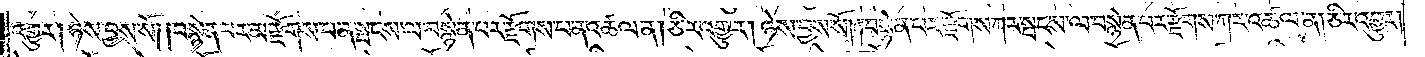འགྱུར། ཉེས་བྱས་སོ། །བསྙེན་པར་མ་རྫོགས་པ་ན་སྤངས་ལ་བསྙེན་པར་རྫོགས་པ་ན་འཚལ་ན། ཅིར་འགྱུར། ཉེས་བྱས་སོ། །བསྙེན་པར་རྫོགས་ཀར་སྤངས་ལ་བསྙེན་པར་རྫོགས་ཀར་འཚལ་ན། ཅིར་འགྱུར།
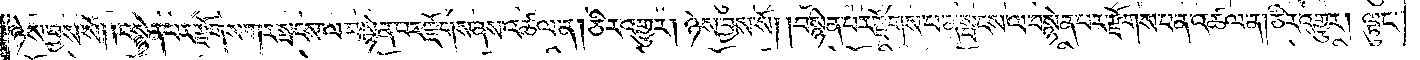ཉེས་བྱས་སོ། །བསྙེན་པར་རྫོགས་ཀར་སྤངས་ལ་བསྙེན་པར་རྫོགས་ནས་འཚལ་ན། ཅིར་འགྱུར། ཉེས་བྱས་སོ། །བསྙེན་པར་རྫོགས་པ་ན་སྤངས་ལ་བསྙེན་པར་རྫོགས་པ་ན་འཚལ་ན། ཅིར་འགྱུར། ལྟུང་
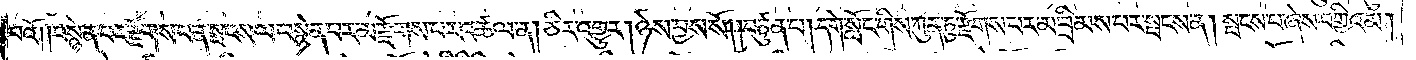བའོ། །བསྙེན་པར་རྫོགས་པ་ན་སྤངས་ལ་བསྙེན་པར་མ་རྫོགས་པར་འཚལ་ན། ཅིར་འགྱུར། ཉེས་བྱས་སོ། །བཙུན་པ། དགེ་སློང་གིས་ཀུན་ཏུ་རྫོགས་པར་མ་བྲིམས་པར་སྤངས་ན། སྤངས་པ་ཞེས་བགྱིའམ།
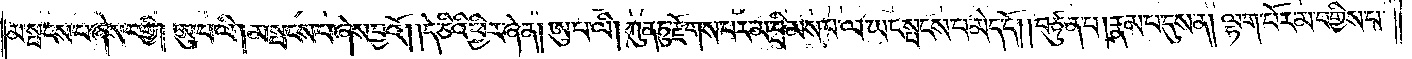མ་སྤངས་པ་ཞེས་བགྱི། ཨུ་པ་ལི། མ་སྤངས་པ་ཞེས་བྱའོ། །དེ་ཅིའི་ཕྱིར་ཞེ་ན། ཨུ་པ་ལི། ཀུན་ཏུ་རྫོགས་པར་མ་བྲིམས་པ་ལ་ཡང་སྤངས་པ་མེད་དོ། །བཙུན་པ། རྣམ་པ་དུས་ན། ལྷག་པོར་མ་བགྱིས་པ་
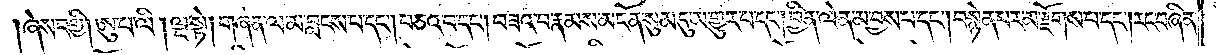ཞེས་བགྱི། ཨུ་པ་ལི། ལྔ་སྟེ། གཞན་ལ་མ་བླངས་པ་དང༌། བཅའ་བ་དང༌། བཟའ་བ་རྣམས་མངོན་སུམ་དུ་མ་གྱུར་པ་དང༌། བྱིན་ལེན་མ་བྱས་པ་དང༌། བསྙེན་པར་མ་རྫོགས་པ་དང༌། རང་བཞིན་
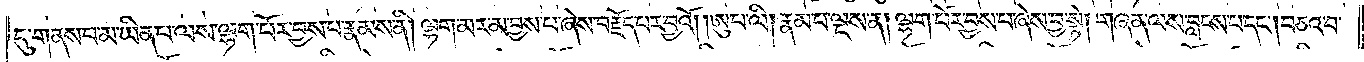དུ་གནས་པ་མ་ཡིན་པ་ལས་ལྷག་པོར་བྱས་པ་རྣམས་ནི། ལྷག་མར་མ་བྱས་པ་ཞེས་བརྗོད་པར་བྱའོ། །ཨུ་པ་ལི། རྣམ་པ་ལྔས་ན། ལྷག་པོར་བྱས་པ་ཞེས་བྱ་སྟེ། གཞན་ལས་བླངས་པ་དང༌། བཅའ་བ་
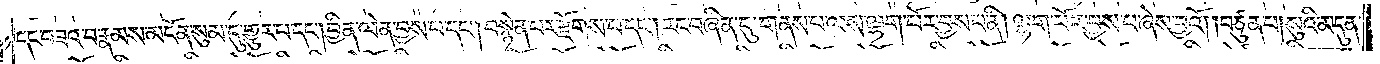དང་བཟའ་བ་རྣམས་མངོན་སུམ་དུ་གྱུར་པ་དང༌། བྱིན་ལེན་བྱས་པ་དང༌། བསྙེན་པར་རྫོགས་པ་དང༌། རང་བཞིན་དུ་གནས་པ་ལས་ལྷག་པོར་བྱས་པ་ནི། ལྷག་པོར་བྱས་པ་ཞེས་བྱའོ། །བཙུན་པ། སུའི་མདུན་
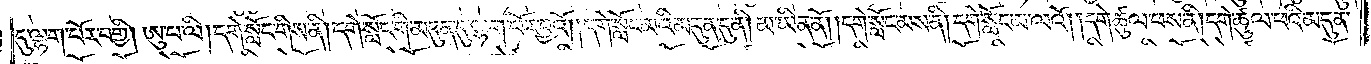དུ་ལྷག་པོར་བགྱི། ཨུ་པ་ལི། དགེ་སློང་གིས་ནི། དགེ་སློང་གི་མདུན་དུ་ལྷག་པོར་བྱའོ། །དགེ་སློང་མའི་མདུན་དུ་ནི། མ་ཡིན་ནོ། །དགེ་སློང་མས་ནི། དགེ་སློང་མ་ལའོ། །དགེ་ཚུལ་ཕས་ནི། དགེ་ཚུལ་ཕའི་མདུན་
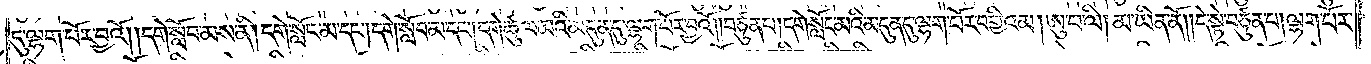དུ་ལྷག་པོར་བྱའོ། །དགེ་སློབ་མས་ནི། དགེ་སློང་མ་དང༌། དགེ་སློབ་མ་དང༌། དགེ་ཚུལ་མའི་མདུན་དུ་ལྷག་པོར་བྱའོ། །བཙུན་པ། དགེ་སློང་མའི་མདུན་དུ་ལྷག་པོར་བགྱིའམ། ཨུ་པ་ལི། མ་ཡིན་ནོ། །དེ་སྟེ་བཙུན་པ། ལྷག་པོར་
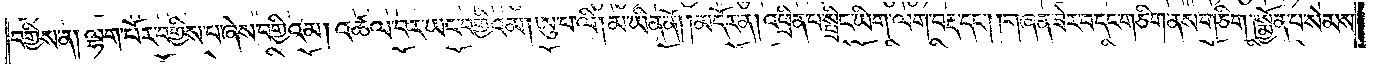བགྱིས་ན། ལྷག་པོར་བགྱིས་པ་ཞེས་བགྱིའམ། འཚལ་བར་ཡང་བགྱིའམ། ཨུ་པ་ལི། མ་ཡིན་ནོ། །མདོར་ན། འཕྲིན་པ་སྤྲིང་ཡིག་ལག་བརྡ་དང༌། །གཞན་ཟེར་བ་དང་གཅིག་ནས་གཅིག །སྨྱོན་པ་སེམས་
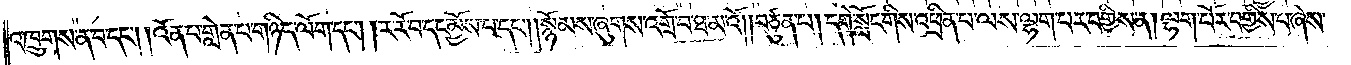འཁྲུགས་ན་བ་དང༌། འོན་པ་གླེན་པ་གཉིད་ལོག་དང༌། །ར་རོ་བ་དང་མྱོས་པ་དང༌། །སྙོམས་ཞུགས་འགྲོ་བ་ཐ་མའོ། །བཙུན་པ། དགེ་སློང་གིས་འཕྲིན་པ་ལས་ལྷག་པར་བགྱིས་ན། ལྷག་པོར་བགྱིས་པ་ཞེས་
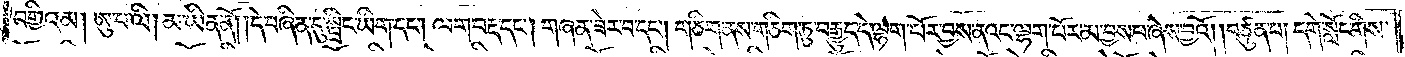བགྱིའམ། ཨུ་པ་ལི། མ་ཡིན་ནོ། །དེ་བཞིན་དུ་སྤྲིང་ཡིག་དང༌། ལག་བརྡ་དང༌། གཞན་ཟེར་བ་དང༌། གཅིག་ནས་གཅིག་ཏུ་བརྒྱུད་དེ་ལྷག་པོར་བྱས་ནའང་ལྷག་པོར་མ་བྱས་པ་ཞེས་བྱའོ། །བཙུན་པ། དགེ་སློང་གིས་
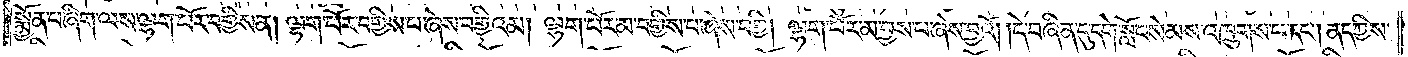སྨྱོན་པ་ཞིག་ལས་ལྷག་པོར་བགྱིས་ན། ལྷག་པོར་བགྱིས་པ་ཞེས་བགྱིའམ། ལྷག་པོར་མ་བགྱིས་པ་ཞེས་བགྱི། ལྷག་པོར་མ་བྱས་པ་ཞེས་བྱའོ། །དེ་བཞིན་དུ་དགེ་སློང་སེམས་འཁྲུགས་པ་དང༌། ནད་ཀྱིས་
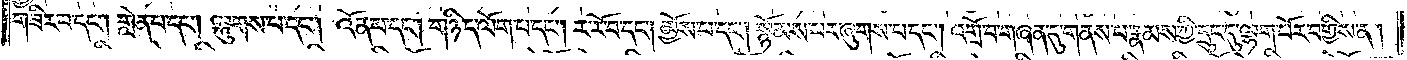གཟིར་བ་དང༌། གླེན་པ་དང༌། ལྐུགས་པ་དང༌། འོན་པ་དང༌། གཉིད་ལོག་པ་དང༌། ར་རོ་བ་དང༌། མྱོས་པ་དང༌། སྙོམས་པར་ཞུགས་པ་དང༌། འགྲོ་བ་གཞན་དུ་གནས་པ་རྣམས་ཀྱི་དྲུང་དུ་ལྷག་པོར་བགྱིས་ན།
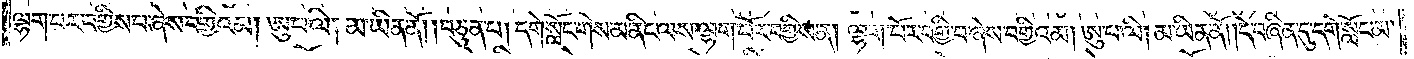ལྷག་པར་བགྱིས་པ་ཞེས་བགྱིའམ། ཨུ་པ་ལི། མ་ཡིན་ནོ། །བཙུན་པ། དགེ་སློང་གིས་མ་ནིང་ལས་ལྷག་པོར་བགྱིས་ན། ལྷག་པོར་བགྱི་བ་ཞེས་བགྱིའམ། ཨུ་པ་ལི། མ་ཡིན་ནོ། །དེ་བཞིན་དུ་དགེ་སློང་མ་
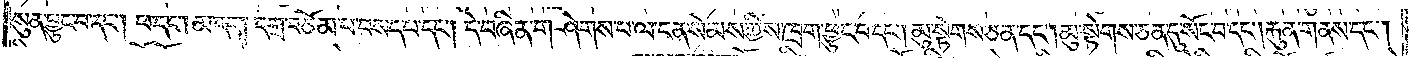སུན་བྱུང་བ་དང༌། ཕ་དང༌། མ་དང༌། དགྲ་བཅོམ་པ་བསད་པ་དང༌། དེ་བཞིན་གཤེགས་པ་ལ་ངན་སེམས་ཀྱིས་ཁྲག་ཕྱུང་བ་དང༌། མུ་སྟེགས་ཅན་དང༌། མུ་སྟེགས་ཅན་དུ་སོང་བ་དང༌། རྐུན་གནས་དང༌།
